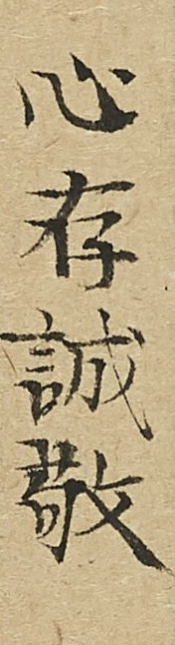心存誠敬
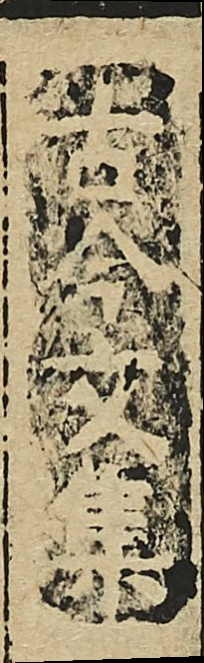古今文集
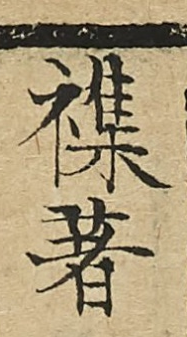雜著
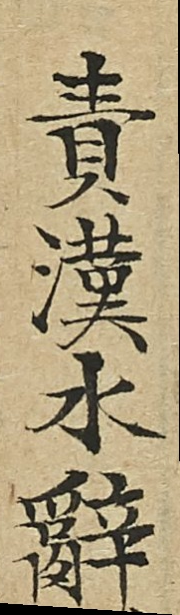責漢水辭
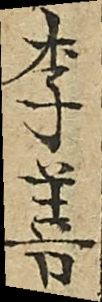李善
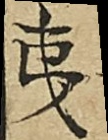夷
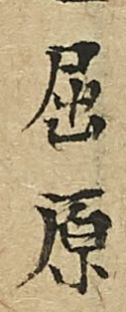屈原
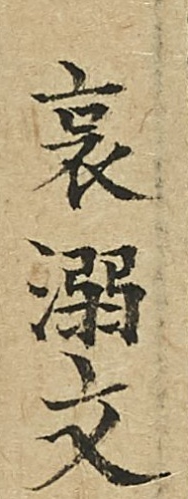哀溺文
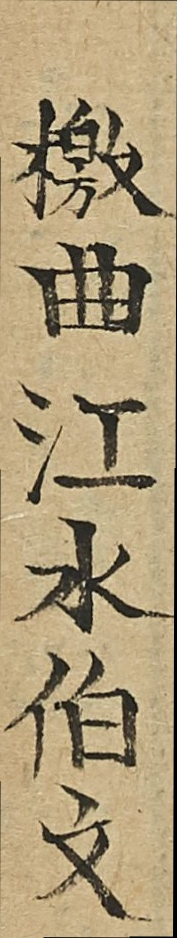檄曲江水伯文
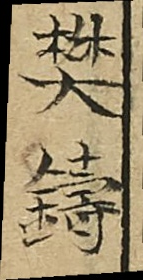樊鑄
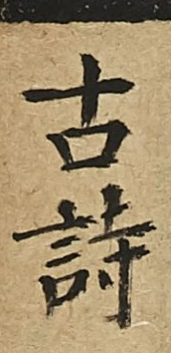古詩
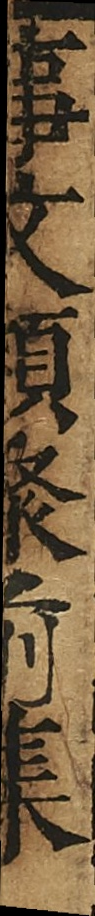事文類聚前集
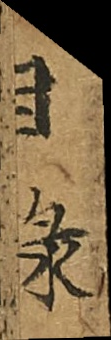目錄
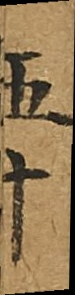五十
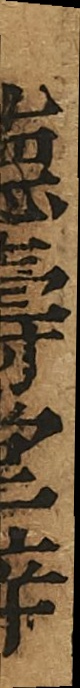德壽堂梓
